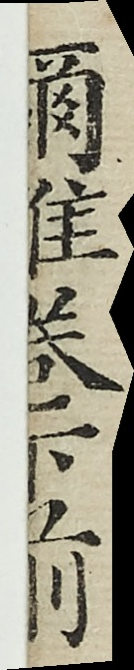爾雅卷下前
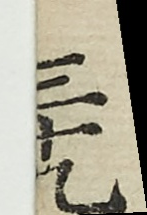三十九
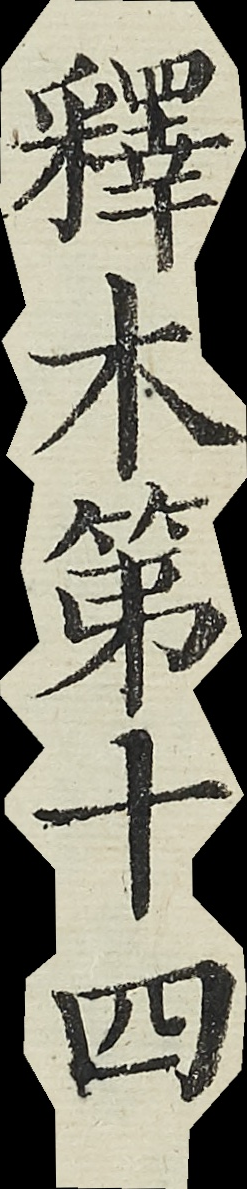釋木第十四
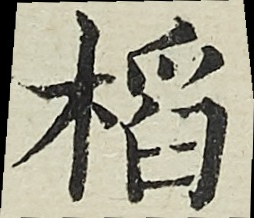槄
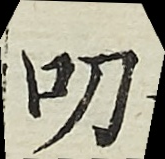叨
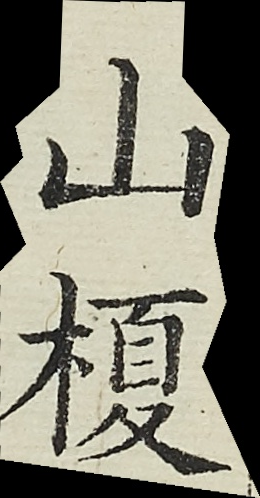山榎
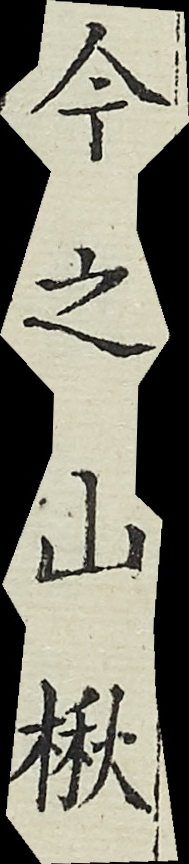今之山楸
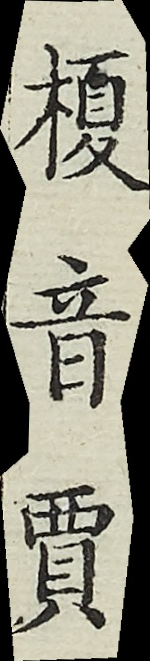榎音賈
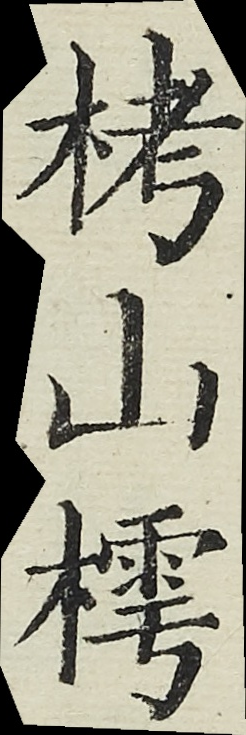栲山樗
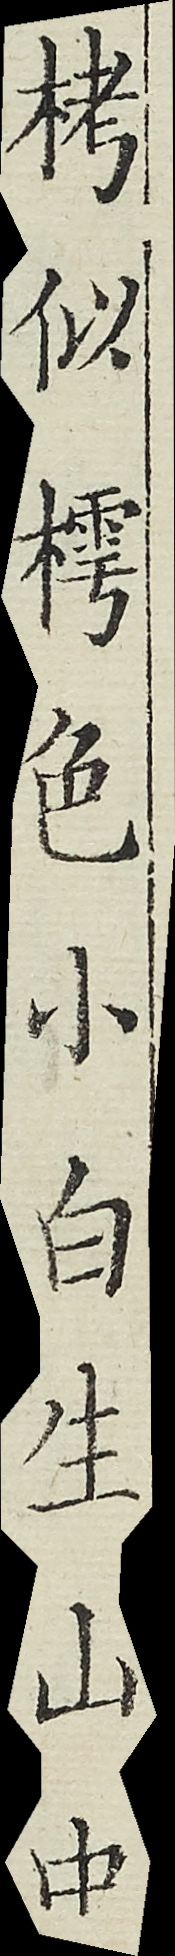栲似樗色小白生山中
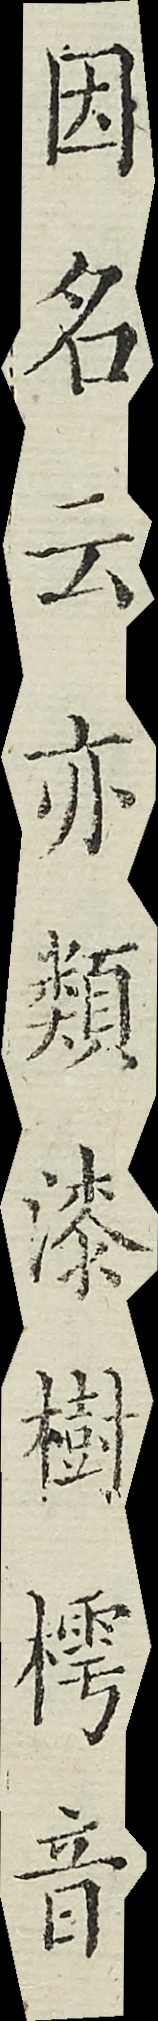因名云亦類漆樹樗音
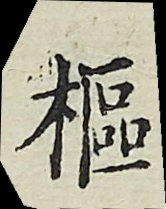樞
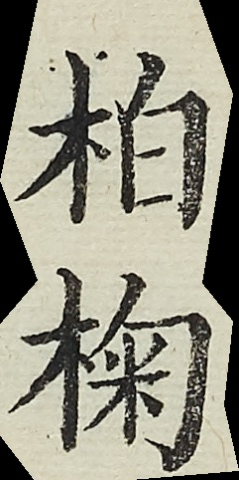柏椈
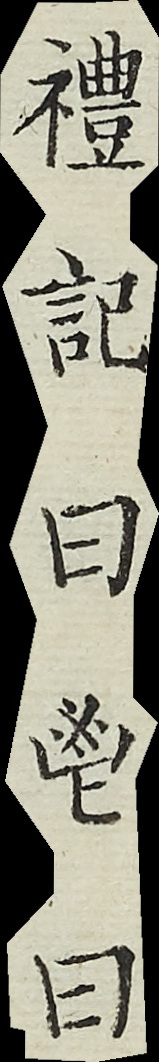禮記曰鬯曰
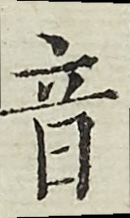音
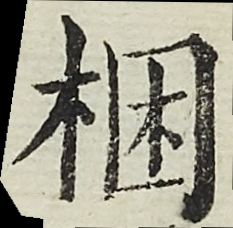梱
